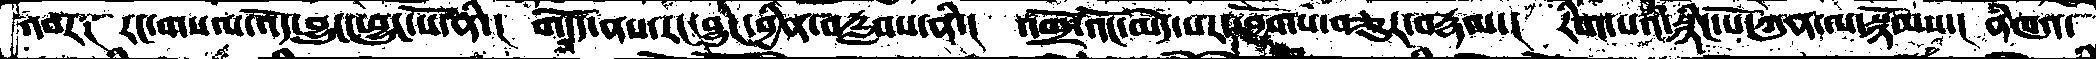འབར༑  རང་གསལ་འོད་བྱུང་ཕྱུང་པོ་ནི་།  གདོད་ནས་རང་བྱུང་བྱིན་བརླབས་ནི་།  འགྲོ་འོང་མེད་པར་ཕྱོགས་བཅུར་བརྡལ་།  རིག་པའི་སྙིང་པོ་ཀུན་ལ་སྙོམས་།  ནཾཁའ་
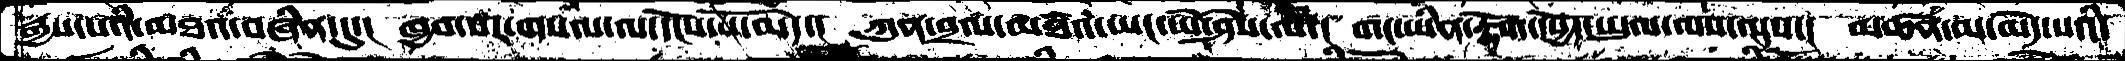རྒྱས་པའི་མཐའ་བཞིན་དུ་།   ཁྱབ་པར་གསལ་ལ་དངོས་པོ་མེད་།  ཀུན་བྲལ་མཐའ་ཡང་ཡེ་ཤེས་ལ་།  གང་ཡིན་རྟོག་དཔྱོད་ཡུལ་ལས་འདས་།  མཚན་མ་མེད་པའི་
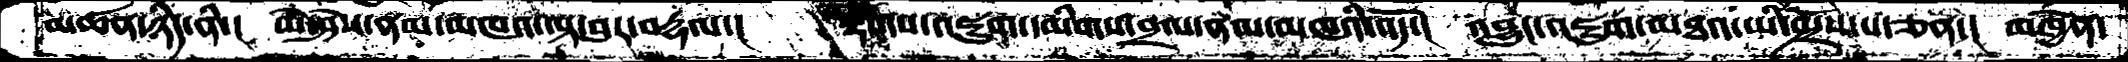མཚན་ཉིད་ནི་།  ཡེ་ཤེས་ནམ་མཁའ་ལྟ་བུར་བརྡལ་།  རྟོགས་འཛུག་དམིགས་བྲལ་ནམ་མཁའི་འོད་།  འབྱུང་འཇུག་མཐའ་ཡི་སྤྲོས་པ་ཅན་།།  མཁྱེན་
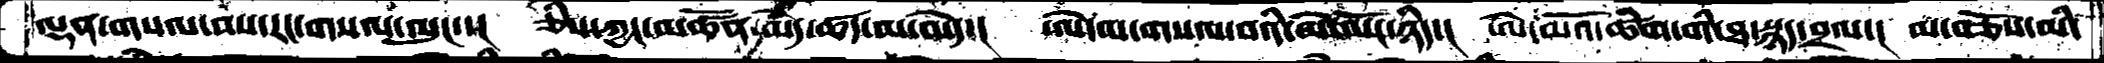ལྡན་གསལ་བས་རང་གསལ་ལུང་་།  ཅིས་ཀྱང་མཚོན་མེད་ཚད་མ་མེད་།  ཨེ་མ་གསལ་བའི་མེ་ལོང་ཉིད་།  ཨེ་མའོ་ཚིག་གི་ཐ་སྙད་བྲལ་།  མ་བཅོས་མི་
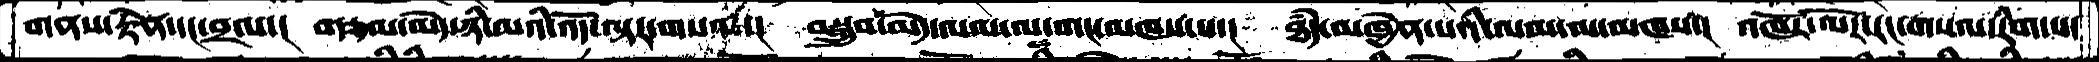གནས་རྟེན་དང་བྲལ་།  བརྩལ་མེད་ཉི་མའི་འོད་ལྟར་གསལ་།  བསྒྲུབ་མེད་ལམ་ལ་གང་མཁས་པ་།  ཐཾད་མཁྱེན་པའི་ལམ་ལ་མཁས་།  འཁོར་ལོར་རང་གསལ་རིག་པ་
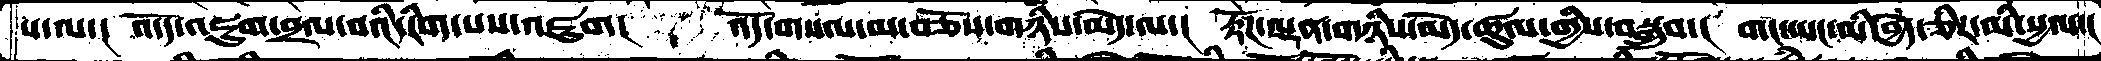པ་ལ་།  འདོད་འཇུག་བྲལ་བའི་རིག་པས་འཇུག་།   འདོ་གསལ་མ་བཅོས་གཉིས་མེད་ལ་།  རྟོག་ལྡན་གཉིས་མེད་ཚུལ་གྱིས་བསྒྲུབ་།  གང་ཡང་མི་བྱེད་ཅིར་མི་སྱལ་།
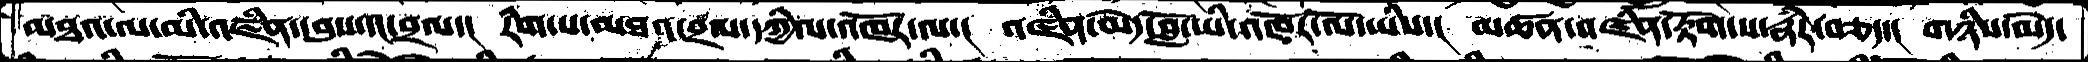མཐའ་ལ་མི་འཛིན་དབུས་དང་བྲལ་།  རིག་པ་མཐའ་བྲལ་དཀྱིལ་འཁོར་ལ་། འཛིན་མེད་བློ་ཡི་འཁོར་ལོ་ཡིས་།  མཚན་འཛིན་རྟོག་པ་རྣཾར་བཅད་།  གཉིས་མེད་
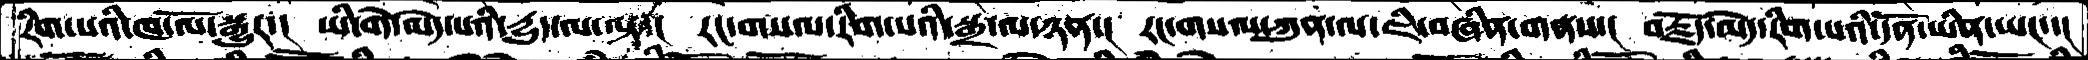རིག་པའི་ཁ་ལོ་སྒྱུར་།  ཡི་གེ་མེད་པའི་དྱུད་ལ་ལྟ་།  རང་གསལ་རིག་པའི་སྒྲ་ལ་ཉན་།  རང་གསལ་ཀུན་ལ་ཇི་བཞིན་གནས་།  བརྗོད་མེད་རིག་པའི་དོན་ཡིན་ཡང་་།
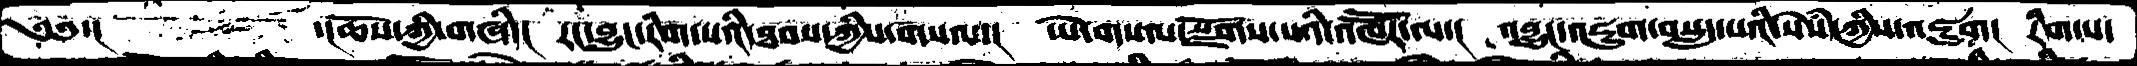༄༅་།          ་།ཆོས་ཀྱི་གཞི་།  རང་བྱུང་རིག་པའི་ཐབས་ཀྱིས་གསལ་།  ཡེ་གསལ་སྫོགས་པའི་འཁཽར་ལ་།  འབྱུང་འཇུག་བསླད་པའི་སེསཾ་ཀྱིས་འཇུག་།  རིག་པ་
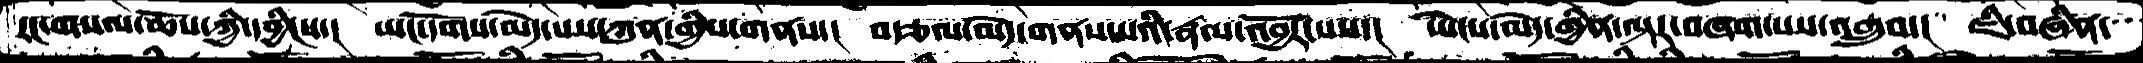རང་གསལ་ཆོས་ཀྱི་དབྱིངས་།  ཡང་དོགས་མེད་པས་ཀུན་གྱིས་གནས་།  བརྩལ་མེད་གནས་པའི་རྣལ་འབྱོར་པས་།  ཡེངས་མེེད་གྱིན་ལྟར་བཞག་པས་འགྲུབ་།  ཇི་བཞིན་
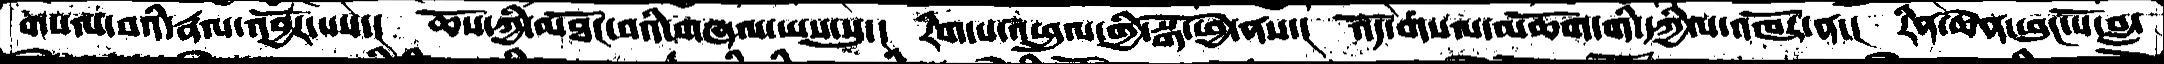གསལ་བའི་རྣལ་འབྱོར་པས་།  ཆོས་ཀྱི་མཐོང་བའི་གཞལ་ཡས་སུ་།  རིག་པ་འཕྲུལ་གྱི་སྒོ་ཕྱེ་ནས་།  འོད་གསལ་མཆོག་གི་དཀྱིལ་འཁོར་ན་།  རིན་ཆེན་ཕུང་པོ་བླ་
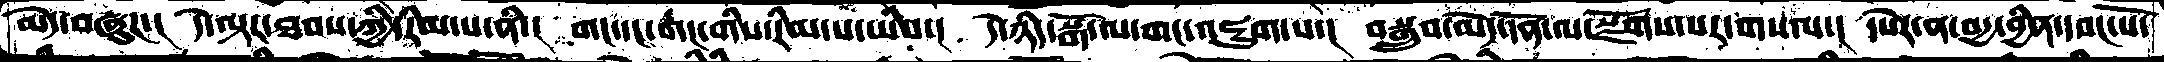མེད་བཞུཌ་།  དེ་ལྟར་ཐབས་ཀྱི་རིམ་པ་ནི་།  གང་དང་གང་གིས་རིམ་པ་ཡིས་།  དེ་ཉིད་སྒོ་ལ་གང་འཇུག་པ་།  བསྒྲུབ་མེད་དོན་ལ་སྫོགས་པར་གསལ་།  དཔེར་ན་བདྱ་བྱིན་དབང་པོ་
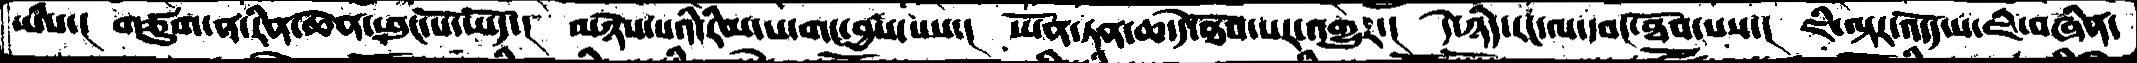ཡིས་།  གཙུག་ན་རིན་ཆེན་ཕུང་པོ་ཡོད་།  མཉེས་པའི་རིམ་པ་གང་བྱས་པས་།  ཡོན་ཏན་ཆ་དེ་ཐོབ་པར་འགྱུར་།  དེ་ཉིད་རང་ལ་དབང་ཐོབ་པས་།  ཇི་ལྟར་འདོད་པ་ཇི་བཞིན་
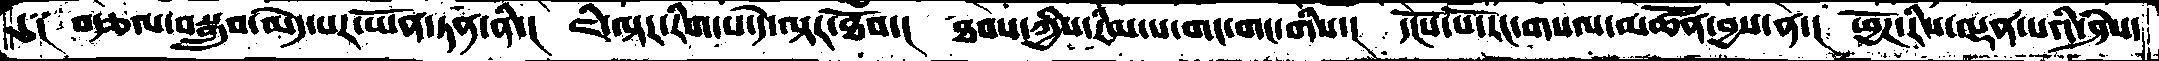དུ༑  བརྩལ་བསྒྲུབ་མེད་པར་ཡོན་ཏན་ནི་།  ཇི་ལྟར་རིག་པ་དེ་ལྟར་ཐོབ་།  ཐབས་ཀྱིས་རིམ་པ་གང་དག་གིས་།  དངོས་པོ་རང་གསལ་མཚོན་བྱས་ན་།  ཕྱོཌ་རིས་ལྡན་པའི་ཤེས་
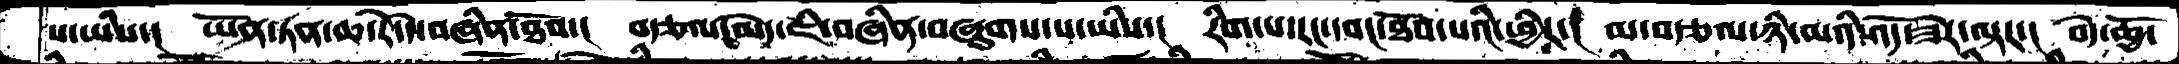པ་ཡིས་།  ཡོན་ཏན་ཆ་རེ་དེ་བཞིན་ཐོབ་།  བརྩལ་མེད་ཇི་བཞིན་བཞུགས་པ་ཡིས་།  རིག་པ་རང་དབང་ཐོབ་པའི་ཕྱིར་།  མ་བརྩལ་ཉི་མའི་འོད་ཟེར་ལྟར་།  བདེ་ཆྱོ
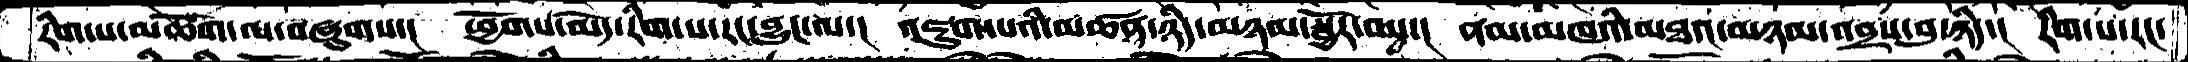རིག་པ་མཆོག་ལ་བཞུགས་།  ཕྱོགས་མེད་རིག་པ་རང་བྱུང་ལ་།  འཇུག་པའི་མཚན་ཉིད་མཉམ་སྦྱོར་བས་།  ནམ་མཁའི་མཐའ་མཉམ་འབྲས་བུ་ཉིད་།  རིག་པ་རང་
